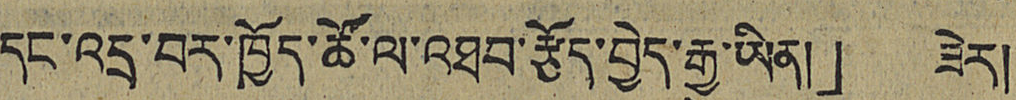དང་འདྲ་བར་ཁྱོད་ཚོ་ལ་འཐབ་རྩོད་བྱེད་རྒྱུ་ཡིན།」 ཟེར།
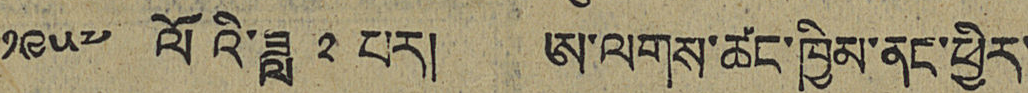༡༩༥༧ ལོའི་ཟླ ༢ པར། ཨ་ལགས་ཚང་ཁྱིམ་ནང་ཕྱིར་
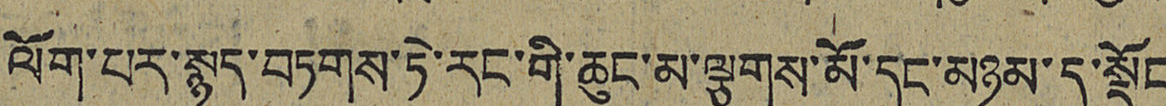ལོག་པར་སྙད་བཏགས་ཏེ་རང་གི་ཆུང་མ་ལྕགས་མོ་དང་མཉམ་དུ་སྡོང
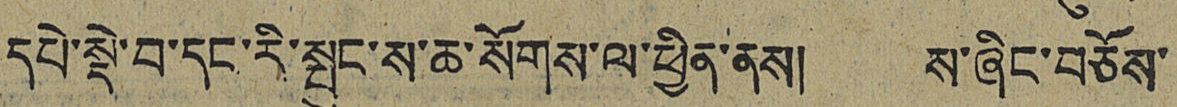དཔེ་སྡེ་བ་དང་རི་སྤུང་ས་ཆ་སོགས་ལ་ཕྱིན་ནས། ས་ཞིང་བཅོས་
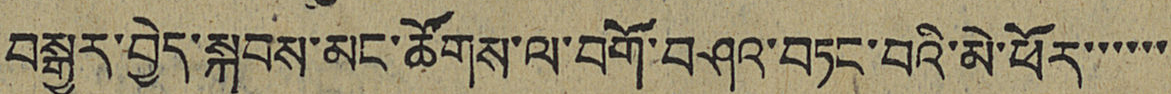བསྒྱུར་བྱེད་སྐབས་མང་ཚོགས་ལ་བགོ་བཤའ་བཏང་བའི་མེ་ཕོར་་་་་་
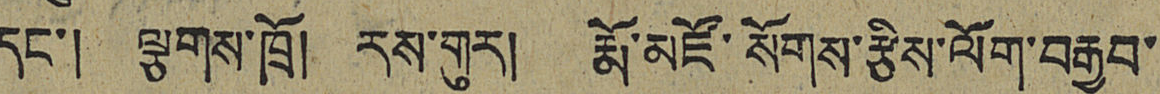དང་། ལྕགས་ཁྲོ། རས་གུར། རྨོ་མཛོ་སོགས་རྩིས་ལོག་བརྒྱབ་
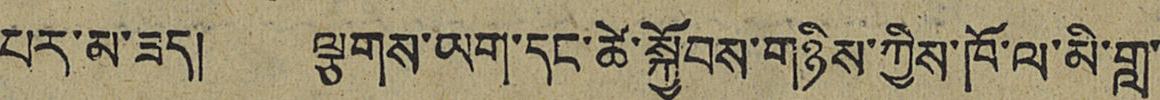པར་མ་ཟད། ལྕགས་ཡག་དང་ཚེ་སྐྱོབས་གཉིས་ཀྱིས་ཁོ་ལ་མི་གླ་
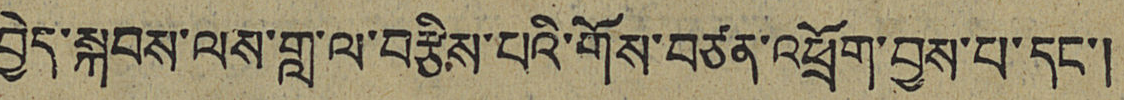བྱེད་སྐབས་ལས་གླ་ལ་བརྩིས་པའི་གོས་བཙན་འཕྲོག་བྱས་པ་དང་།
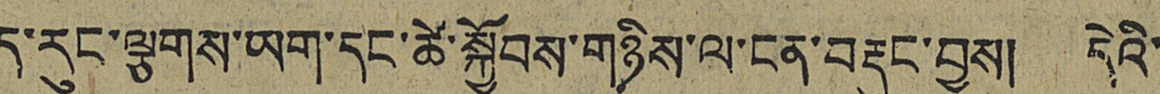ད་རུང་ལྕགས་ཡག་དང་ཚེ་སྐྱོབས་གཉིས་ལ་ངན་བརྡུང་བྱས། དེའི་
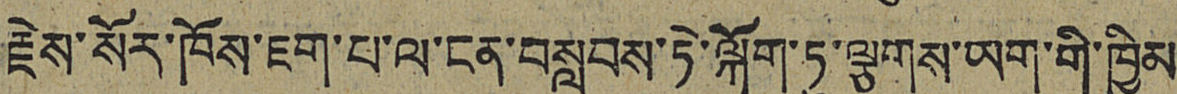རྗེས་སོར་ཁོས་ཇག་པ་ལ་ངན་བསླབས་ཏེ་ལྐོག་ཏུ་ལྕགས་ཡག་གི་ཁྱིམ
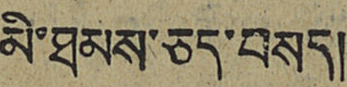མི་ཐམས་ཅད་བསད།
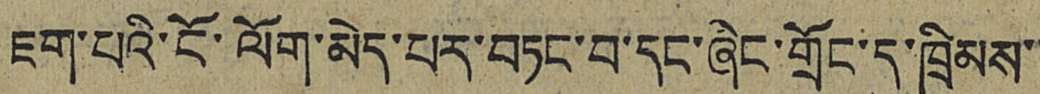ཇག་པའི་ངོ་ལོག་མེད་པར་བཏང་བ་དང་ཞིང་གྲོང་དུ་ཁྲིམས་་
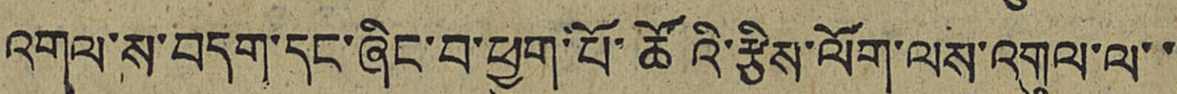འགལ་ས་བདག་དང་ཞིང་བ་ཕྱུག་པོ་ཚོའི་རྩིས་ལོག་ལས་འགུལ་ལ་་
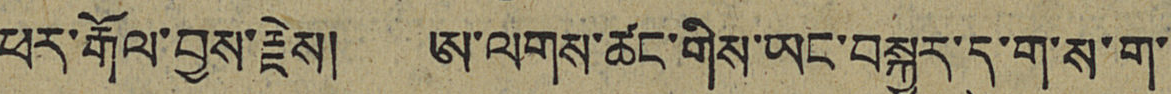ཕར་རྒོལ་བྱས་རྗེས། ཨ་ལགས་ཚང་གིས་ཡང་བསྐྱར་དུ་ག་ས་ག་
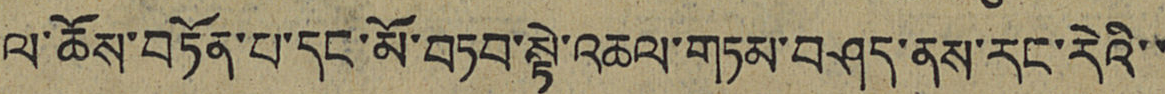ལ་ཆོས་བཏོན་པ་དང་མོ་བཏབ་སྟེ་འཆལ་གཏམ་བཤད་ནས་རང་རེའི་་
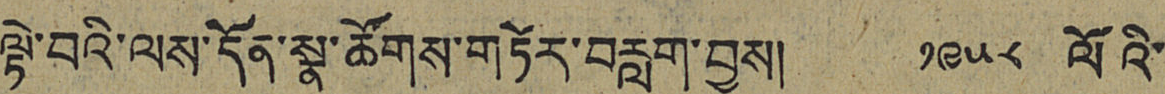ལྟེ་བའི་ལས་དོན་སྣ་ཚོགས་གཏོར་བརླག་བྱས། ༡༩༥༨ ལོའི་
